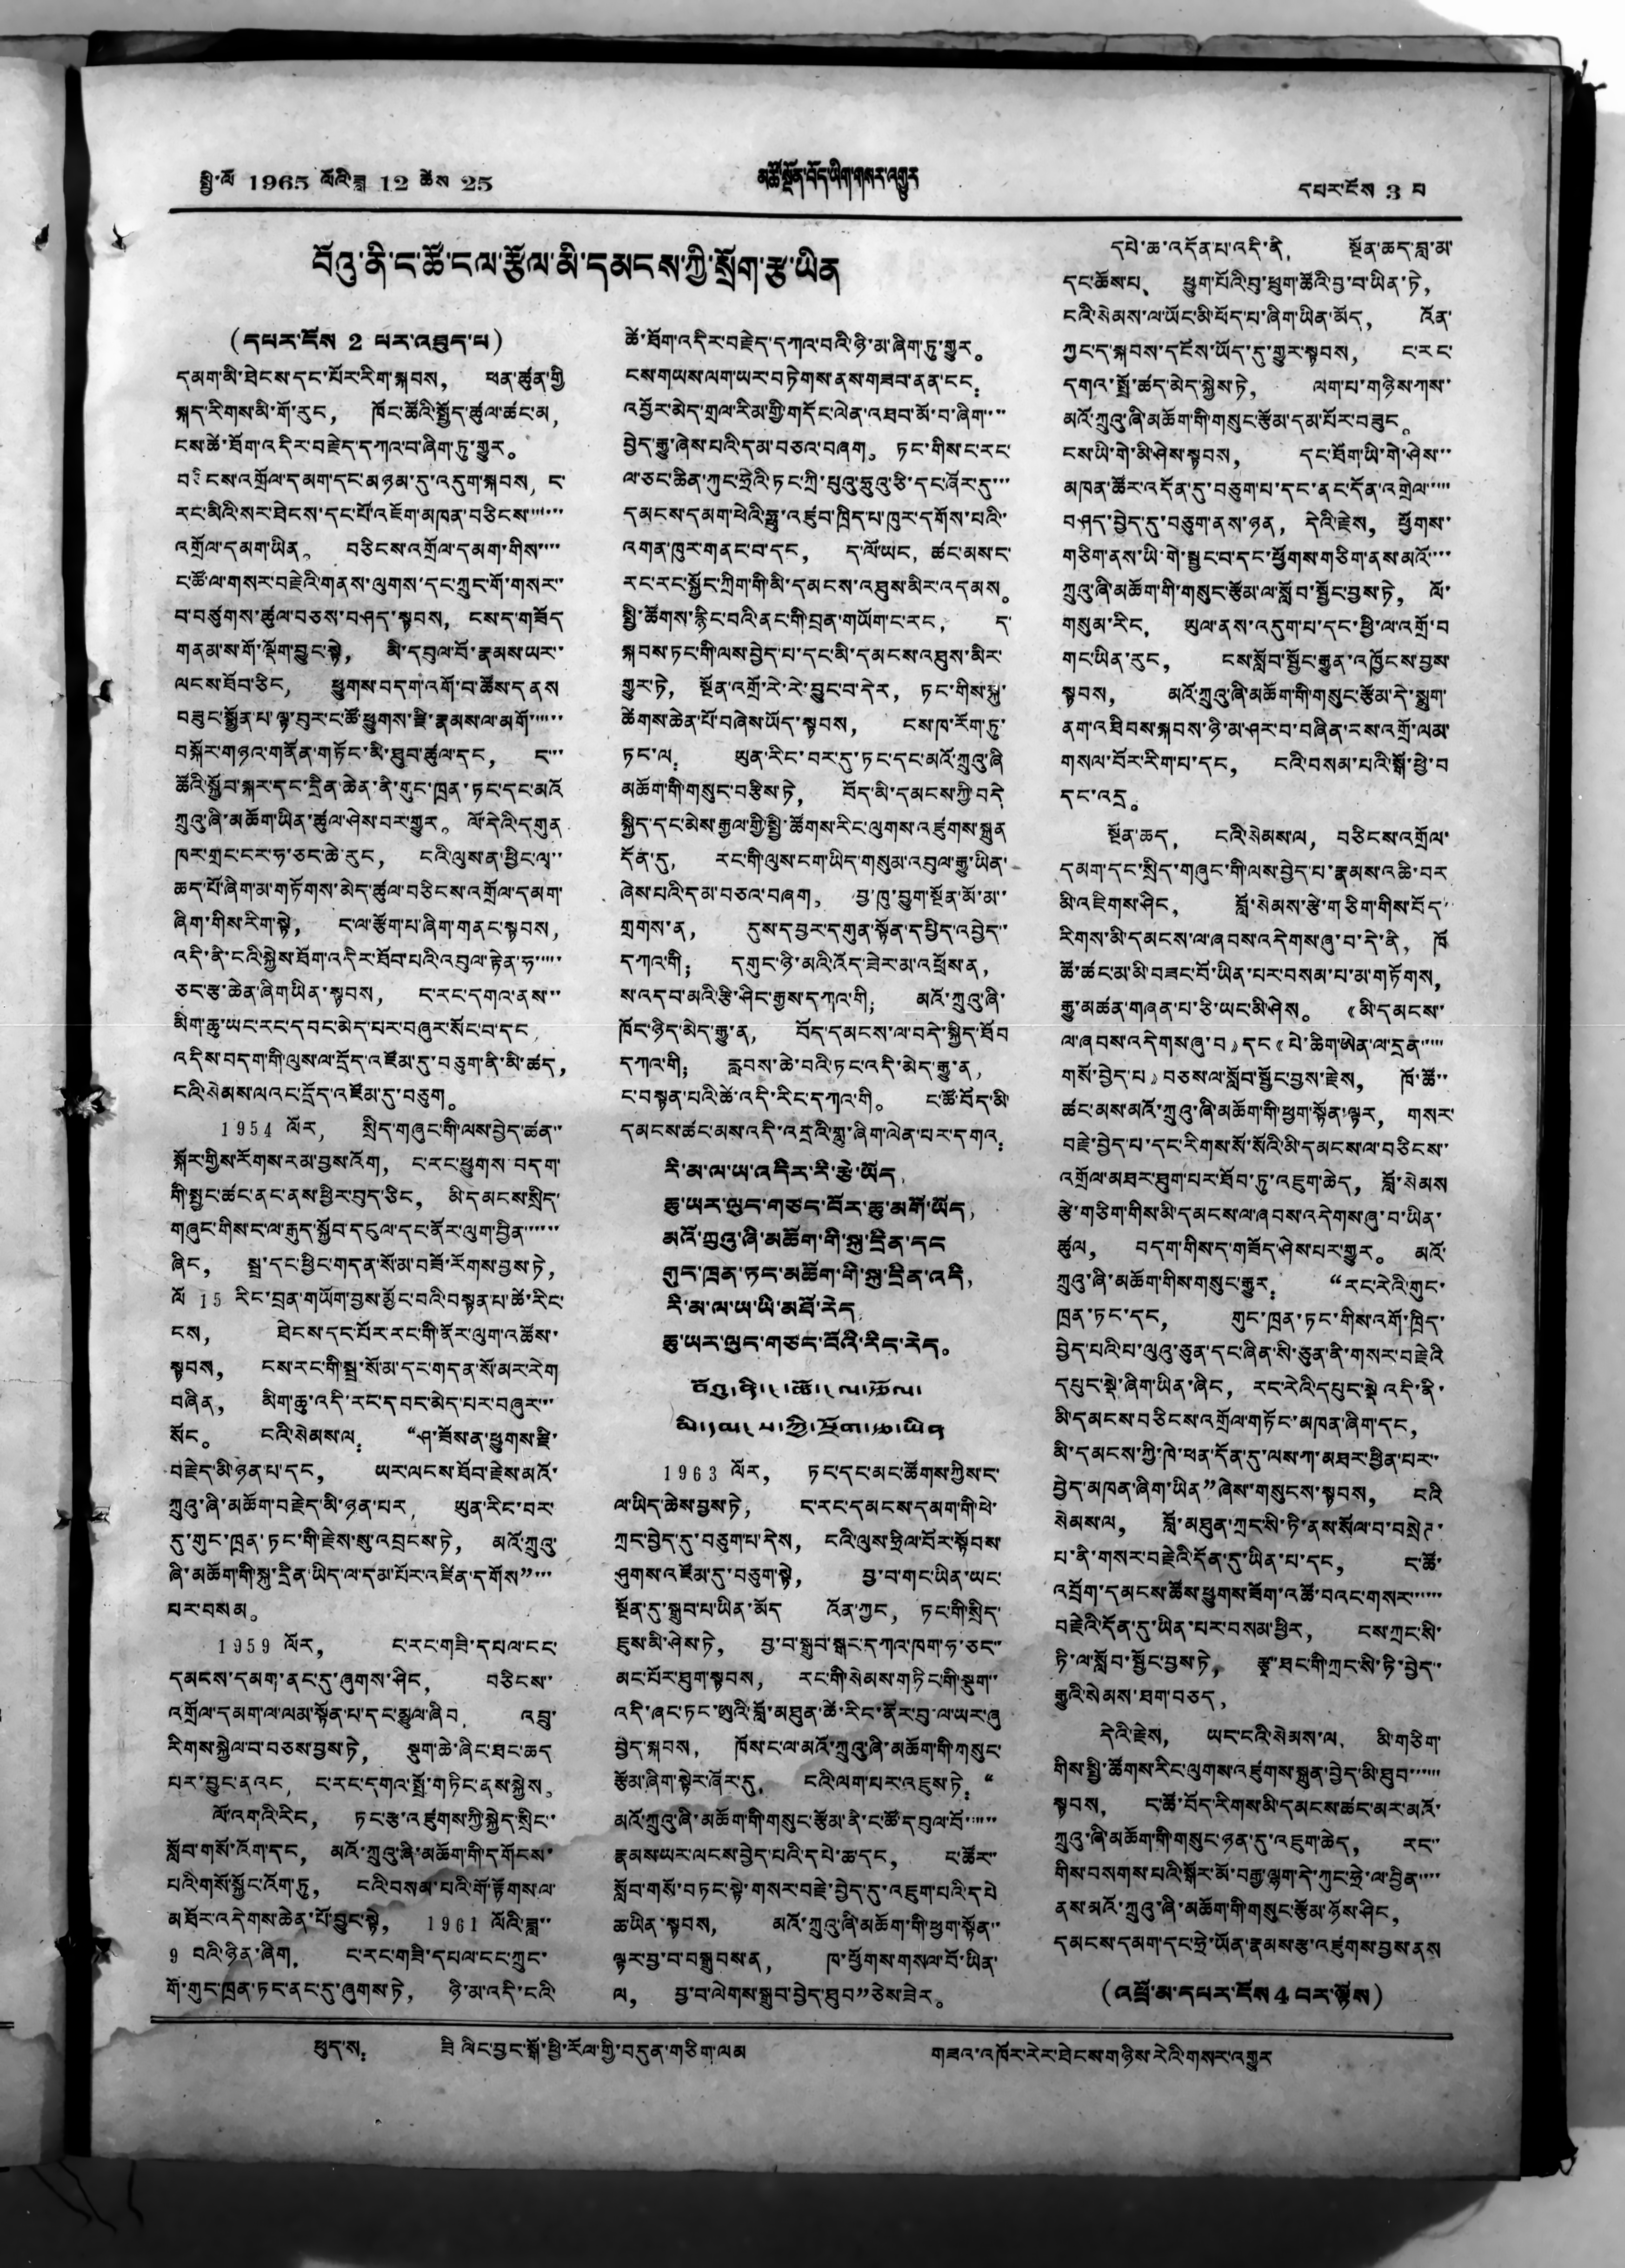སྤྱི་ལོ 1965 ལོའི་ཟླ 12 ཚེས 25 མཚོ་སྔོན་བོད་ཡིག་གསར་འགྱུར དཔར་ངོས 3 བ
བོའུ་ནི་ང་ཚོ་ངལ་རྩོལ་མི་དམངས་ཀྱི་སྲོག་རྩ་ཡིན
(དཔར་ངོས 2 པར་འཐུད་པ)
དམག་མི་ཐེངས་དང་པོར་རིག་སྐབས， ཕན་ཚུན་གྱི་
སྐད་རིགས་མི་གོ་རུང， ཁོང་ཚོའི་སྤྱོད་ཚུལ་ཚང་མ，
ངས་ཚེ་ཐོག་འདིར་བརྗེད་དཀའ་བ་ཞིག་ཏུ་གྱུར。
བཅིངས་འགྲོལ་དམག་དང་མཉམ་དུ་འདུག་སྐབས， ང་
རང་མིའི་སར་ཐེངས་དང་པོ་འཇོག་མཁན་བཅིངས་་་་་་་
འགྲོལ་དམག་ཡིན。 བཅིངས་འགྲོལ་དམག་གིས་་་་
ང་ཚོ་ལ་གསར་བརྗེའི་གནས་ལུགས་དང་ཀྲུང་གོ་གསར་་
བ་བཙུགས་ཚུལ་བཅས་བཤད་སྟབས， ངས་ད་གཟོད་
གནམ་ས་གོ་ལྡོག་བྱུང་སྟེ， མི་དབུལ་བོ་རྣམས་ཡར་་
ལངས་ཐོབ་ཅིང， ཕྱུགས་བདག་འགོ་བ་ཚོས་དནུས
བཟུང་སྨྱོན་པ་ལྟ་བུར་ང་ཚོ་ཕྱུགས་རྫི་རྣམས་ལ་མགོ་་་་་་
བསྐོར་གཉའ་གནོན་གཏོང་མི་ཐུབ་ཚུལ་དང， ང་་་
ཚོའི་སྐྱོབ་སྐར་དང་དྲིན་ཆེན་ནི་གུང་ཁྲན་ཏང་དང་མའོ་
ཀྲུའུ་ཞི་མཆོག་ཡིན་ཚུལ་ཤེས་བར་གྱུར。 ལོ་དེའི་དགུན
ཁར་གྲང་ངར་ཧ་ཅང་ཆེ་རུང， ངའི་ལུས་ན་ཕྱིང་ལྭ་་
ཆད་པོ་ཞིག་མ་གཏོགས་མེད་ཚུལ་བཅིངས་འགྲོལ་དམག་
ཞིག་གིས་རིག་སྟེ， ང་ལ་རྩོག་པ་ཞིག་གནང་སྟབས，
འདི་ནི་ངའི་སྐྱེས་ཐོག་འདིར་ཐོབ་པའི་འབུལ་རྟེན་ཧ་་་་་
ཅད་རྩ་ཆེན་ཞིག ཡིན་སྟབས， ང་རང་དགའ་ནས་་་
མིག་ཆུ་ཡང་རང་དབང་མེད་པར་བཞུར་སོང་བ་དང，
འདིས་བདག་གི་ལུས་ལ་དྲོད་འཛོམ་དུ་བཅུག་ནི་མི་ཚད，
ངའི་སེམས་ལའང་དྲོད་འཛོམ་དུ་བཅུག。
1954 ལོར， སྲིད་གཞུང་གི་ལས་བྱེད་ཚན་་
སྐོར་གྱིས་རོགས་རམ་བྱས་འོག， ང་རང་ཕྱུགས་བདག་
གི་སྤྱང་ཚང་ནང་ནས་ཕྱིར་བུད་ཅིང， མི་དམངས་སྲིད་
གཞུང་གིས་ང་ལ་རྒུད་སྐྱོབ་དངུལ་དང་ནོར་ལུག་བྱིན་་་་་་
ཞིང， སྦྲ་དང་ཕྱིང་གདན་སོ་མ་བཟོ་རོགས་བྱས་ཏེ，
ལོ 15 རིང་བྲན་གཡོག་བྱས་མྱོང་བའི་བསྟན་པ་ཚེ་རིང་
ངས， ཐེངས་དང་པོར་རང་གི་ནོར་ལུག་འཚོས་་
སྟབས， ངས་རང་གི་སྦྲ་སོ་མ་དང་གདན་སོ་མར་རེག
བཞིན， མིག་ཆུ་འདི་རང་དབང་མེད་པར་བཞུར་་་་
སོང。 ངའི་སེམས་ལ： “ཤ་ཟོས་ན་ཕྱུགས་རྫི་
བརྗེད་མི་ཉན་པ་དང， ཡར་ལངས་ཐོབ་རྗེས་མའོ་
ཀྲུའུ་ཞི་མཆོག་བརྗེད་མི་ཉན་པར， ཡུན་རིང་བར་
དུ་གུང་ཁྲན་ཏང་གི་རྗེས་སུ་འབྲངས་ཏེ， མའོ་ཀྲུའུ་
ཞི་མཆོག་གི་སྐུ་དྲིན་ཡིད་ལ་དམ་པོར་འཛིན་དགོས”་་་
པར་བསམ。
1959 ལོར， ང་རང་གཟི་དཔལ་ངང་
དམངས་དམག་ནང་དུ་ཞུགས་ཤིང， བཅིངས་་
འགྲོལ་དམག་ལ་ལམ་སྟོན་པ་དང་མྱུལ་ཞིབ， འབྲུ་
རིགས་སྐྱེལ་བ་བཅས་བྱས་ཏེ， སྡུག་ཆེ་ཞིང་ཐང་ཆད
པར་བྱུང་ནའང， ང་རང་དགའ་སྤྲོ་གཏིང་ནས་སྐྱེས。
ལོ་འགའི་རིང， ཏང་རྩ་འཛུགས་ཀྱི་སྐྱེད་སྲིང་
སློབ་གསོ་འོག་དང， མའོ་ཀྲུའུ་ཞི་མཆོག་གི་དགོངས་
པའི་གསོ་སྐྱོང་འོག་ཏུ， ངའི་བསམ་པའི་གོ་རྟོགས་ལ་
མཐོར་འདེགས་ཆེན་པོ་བྱུང་སྟེ， 1961 ལོའི་ཟླ་་
9 བའི་ཉིན་ཞིག， ང་རང་གཟི་དཔལ་ངང་ཀྲུང་
གོ་གུང་ཁྲན་ཏང་ནང་དུ་ཞུགས་ཏེ， ཉི་མ་འདི་ངའི་
ཚེ་ཐོག་འདིར་བརྗེད་དཀའ་བའི་ཉི་མ་ཞིག་ཏུ་གྱུར。
ངས་གཡས་ལག་ཡར་བཏེགས་ནས་གཟབ་ནན་ངང：
འབྱོར་མེད་གྲལ་རིམ་གྱི་གདོང་ལེན་འཐབ་མོ་བ་ཞིག་་་་
བྱེད་རྒྱུ་ཞེས་པའི་དམ་བཅའ་བཞག。 ཏང་གིས་ང་རང་
ལ་ཅང་ཆིན་ཀུང་ཧྲེའི་ཏང་ཀྲི་པུའུ་ཧྲུའུ་ཅི་དང་ཞོར་དུ་་་་
དམངས་དམག་ཕེའི་ཧྥུ་འཛུབ་ཁྲིད་པ་ཁུར་དགོས་པའི་་
འགན་ཁུར་གནང་བ་དང， ད་ལོ་ཡང， ཚང་མས་ང་
རང་རང་སྐྱོད་ཀྲིག་གི་མི་དམངས་འཐུས་མིར་འདམས。
སྤྱི་ཚོགས་རྙིང་བའི་ནང་གི་བྲན་གཡོག་ང་རང， ད་
སྐབས་ཏང་གི་ལས་བྱེད་པ་དང་མི་དམངས་འཐུས་མིར་
གྱུར་ཏེ， སྔོན་འགྲོ་རེ་རེ་བྱུང་བ་དེར， ཏང་གིས་སྐུ་
ཚེགས་ཆེན་པོ་བཞེས་ཡོད་སྟབས， ངས་ཁ་རོག་ཏུ་
ཏང་ལ： ཡུན་རིང་བར་དུ་ཏང་དང་མའོ་ཀྲུའུ་ཞི
མཆོག་གི་གསུང་བརྩིས་ཏེ， བོད་མི་དམངས་ཀྱི བདེ་
སྐྱིད་དང་མེས་རྒྱལ་གྱི་སྤྱི་ཚོགས་རིང་ལུགས་འཛུགས་སྐྲུན
དོན་དུ， རང་གི་ལུས་ངག་ཡིད་གསུམ་འབུལ་རྒྱུ་ཡིན་
ཞེས་པའི་དམ་བཅའ་བཞག， བྱ་ཁུ་བྱུག་སྔོན་མོ་མ་་
གྲགས་ན， དུས་དབྱར་དགུན་སྟོན་དཔྱིད་འབྱེད་་
དཀའ་གི； དགུང་ཉི་མའི་འོད་ཟེར་མ་འཕྲོས་ན，
ས་འདུབ་མའི་རྩི་ཤིང་རྒྱས་དཀའ་གི； མའོ་ཀྲུའུ་ཞི་
ཁོང་ཉིད་མེད་རྒྱུ་ན， བོད་དམངས་ལ་བདེ་སྐྱིད་ཐོབ
དཀའ་གི； རླབས་ཆེ་བའི་ཏང་འདི་མེད་རྒྱུ་ན，
ང་བསྟན་པའི་ཚེ་འདི་རིང་དཀའ་གི。 ང་ཚོ་བོད་མི
དམངས་ཚང་མས་འདི་འདྲའི་གླུ་ཞིག་ལེན་པར་དགའ：
རི་མ་ལ་ཡ་འདིར་རི་རྩེ་ཡོད，
ཆུ་ཡར་ལུད་གཙང་པོར་ཆུ་མགོ་ཡོད，
མའོ་ཀྲུའུ་ཞི་མཆོག་གི་མུ་དྲིན་དང
གུང་ཁྲན་ཏང་མཆོག་གི་སྐུ་དྲིན་འདི，
རི་མ་ལ་ཡ་ཡི་མཐོ་རེད，
ཆུ་ཡར་ལུང་གཙང་པོའི་རིང་རེད。
བོའོ་ནི་ང་ཚོ་ངལ་རྩོལ་
མི་དམངས་ཀྱི་སྲོག་རྩ་ཡིན
1963 ལོར， ཏང་དང་མང་ཚོགས་ཀྱིས་ང་
ལ་ཡིད་ཆེས་བྱས་ཏེ， ང་རང་དམངས་དམག་གི་ཕེ་
ཀྲང་བྱེད་དུ་བཅུག་པ་དེས， ངའི་ལུས་ཧྲིལ་བོར་སྟོབས་
ཤུགས་འཛོམ་དུ་བཅུག་སྟེ， བྱ་བ་གང་ཡིན་ཡང་
སྔོན་རུ་སྒྲུབ་པ་ཡིན་མོད འོན་ཀྱང， ཏང་གི་སྲིད་
ཇུས་མི་ཤེས་ཏེ， བྱ་བ་སྒྲུབ་སྒང་དཀའ་ཁག་ཧ་ཅང་་
མང་པོར་ཐུག་སྟབས， རང་གི་སེམས་གཏིང་གི་སྡུག་་
འདི་ཞུང་ཏང་ཨུའི་བློ་མཐུན་ཚེ་རིང་ནོར་བུ་ལ་ཡར་ཞུ
བྱེད་སྐབས， ཁོས་ང་ལ་མའོ་ཀྲུའུ་ཞི་མཆོག་གི་གསུང་
རྩོམ་ཞིག་སྟེར་ཞོར་དུ， ངའི་ལག་པར་འཇུས་ཏེ：“
མའོ་ཀྲུའུ་ཞི་མཆོག་གི་གསུང་རྩོམ་ནི་ང་ཚོ་དབུལ་བོ་་་་་་
རྣམས་ཡར་ལངས་བྱེད་པའི་དཔེ་ཆ་དང， ང་ཚོར་་
སློབ་གསོ་བཏང་སྟེ་གསར་བརྗེ་བྱེད་དུ་འཇུག་པའི་དཔེ
ཆ་ཡིན་སྟབས， མའོ་ཀྲུའུ་ཞི་མཆོག་གི་ཕྱག་སྟོན་་
ལྟར་བྱ་བ་བསྒྲུབས་ན， ཁ་ཕྱོགས་གསལ་བོ་ཡིན་
ལ， བྱ་བ་ལེགས་སྒྲུབ་བྱེད་ཐུབ”ཅེས་ཟེར。
དཔེ་ཆ་འདོན་པ་འདི་ནི， སྔོན་ཆད་བླ་མ་
དང་ཆོས་པ、 ཕྱུག་པོའི་བུ་ཕྲུག་ཚོའི་བྱ་བ་ཡིན་ཏེ，
ངའི་སེམས་ལ་ཡོང་མི་ཕོད་པ་ཞིག་ཡིན་མོད， འོན་
ཀྱང་ད་སྐབས་དངོས་ཡོད་དུ་གྱུར་སྟབས， ང་རང་
དགའ་སྤྲོ་ཚད་མེད་སྐྱེས་ཏེ， ལག་པ་གཉིས་ཀས་་
མའོ་ཀྲུའུ་ཞི་མཆོག་གི་གསུང་རྩོམ་དམ་པོར་བཟུང。
ངས་ཡི་གེ་མི་ཤེས་སྟབས， དང་ཐོག་ཡི་གེ་ཤེས་་་
མཁན་ཚོར་འདོན་དུ་བཅུག་པ་དང་ནང་དོན་འགྲེལ་་་་་
བཤད་བྱེད་དུ་བཅུག་ནས་ཉན， དེའི་རྗེས， ཕྱོགས་
གཅིག་ནས་ཡི་གེ་སྦྱང་བ་དང་ཕྱོགས་གཅིག་ནས་མའོ་་་་
ཀྲུའུ་ཞི་མཆོག་གི་གསུང་རྩོམ་ལ་སློབ་སྦྱོང་བྱས་ཏེ， ལོ་
གསུམ་རིང， ཡུལ་ནས་འདུག་པ་དང་ཕྱི་ལ་འགྲོ་བ
གང་ཡིན་རུང， ངས་སློབ་སྦྱོང་རྒྱུན་འཁྱོངས་བྱས་
སྟབས， མའོ་ཀྲུའུ་ཞི་མཆོག་གི་གསུང་རྩོམ་དེ་སྨུག་
ནག་འཐིབས་སྐབས་ཉི་མ་ཤར་བ་བཞིན་རས་འགྲོ་ལམ་
གསལ་བོར་རིག་པ་དང， ངའི་བསམ་པའི་སྒོ་ཕྱེ་བ་
དང་འདྲ。
སྔོན་ཆད， ངའི་སེམས་ལ， བཅིངས་འགྲོལ་
དམག་དང་སྲིད་གཞུང་གི་ལས་བྱེད་པ་རྣམས་འཆི་བར
མི་འཇིགས་ཤིང， བློ་སེམས་རྩེ་གཅིག་གིས་བོད་
རིགས་མི་དམངས་ལ་ཞབས་འདེགས་ཞུ་བ་དེ་ནི， ཁོ་
ཚོ་ཚང་མ་མི་བཟང་པོ་ཡིན་པར་བསམ་པ་མ་གཏོགས，
རྒྱུ་མཚན་གཞན་པ་ཅི་ཡང་མི་ཤེས。 《མི་དམངས་་
ལ་ཞབས་འདེགས་ཞུ་བ》དང《པེ་ཆིག་ཨེན་ལ་དྲན་་་་་
གསོ་བྱེད་པ》བཅས་ལ་སློབ་སྦྱོང་བྱས་རྗེས， ཁོ་ཚོ་་
ཚང་མས་མའོ་ཀྲུའུ་ཞི་མཆོག་གི་ཕྱག་སྟོན་ལྟར， གསར་
བརྗེ་བྱེད་པ་དང་རིགས་སོ་སོའི་མི་དམངས་ལ་བཅིངས་་
འགྲོལ་མཐར་ཐུག་པར་ཐོབ་ཏུ་འཇུག་ཆེད， བློ་སེམས་
རྩེ་གཅིག་གིས་མི་དམངས་ལ་ཞབས་འདེགས་ཞུ་བ་ཡིན་
ཚུལ， བདག་གིས་ད་གཟོད་ཤེས་པར་གྱུར。 མའོ་
ཀྲུའུ་ཞི་མཆོག་གིས་གསུང་རྒྱུར： “རང་རེའི་གུང་
ཁྲན་ཏང་དང， གུང་ཁྲན་ཏང་གིས་འགོ་ཁྲིད་
བྱེད་པའི་པ་ལུའུ་ཅུན་དང་ཞིན་སི་ཅུན་ནི་གསར་བརྗེའི
དཔུང་སྡེ་ཞིག་ཡིན་ཞིང， རང་རེའི་དཔུང་སྡེ འདི་ནི་
མི་དམངས་བཅིངས་འགྲོལ་གཏོང་མཁན་ཞིག་དང，
མི་དམངས་ཀྱི་ཁེ་ཕན་དོན་དུ་ལས་ཀ་མཐར་ཕྱིན་པར་་
བྱེད་མཁན་ཞིག་ཡིན”ཞེས་གསུངས་སྟབས， ངའི
སེམས་ལ， བློ་མཐུན་ཀྲང་སི་ཏི་ནས་སོལ་བ་བསྲེཊ་
པ་ནི་གསར་བརྗེའི་དོན་དུ་ཡིན་པ་དང， ང་ཚོ་
འབྲོག་དམངས་ཚོས་ཕྱུགས་ཟོག་འཚོ་བའང་གསར་་་་་་
བརྗེའི་དོན་དུ་ཡིན་པར་བསམ་ཕྱིར， ངས་ཀྲུང་སི་
ཏི་ལ་སློབ་སྦྱོང་བྱས་ཏེ， རྩྭ་ཐང་གི་ཀྲང་སི་ཏི་བྱེད་་
རྒྱུའི་སེམས་ཐག་བཅད。
དེའི་རྗེས， ཡང་ངའི་སེམས་ལ， མི་གཅིག
གིས་སྤྱི་ཚོགས་རིང་ལུགས་འཛུགས་སྐྲུན་བྱེད་མི་ཐུབ་་་་་་
སྟབས， ང་ཚོ་བོད་རིགས་མི་དམངས་ཚང་མར་མའོ་
ཀྲུའུ་ཞི་མཆོག་གི་གསུང་ཉན་དུ་འཇུག་ཆེད， རང་
གིས་བསགས་པའི་སྒོར་མོ་བརྒྱ་ལྷག་དེ་ཀུང་ཧྲེ་ལ་བྱིན་་་་་
ནས་མའོ་ཀྲུའུ་ཞི་མཆོག་གི་གསུང་རྩོམ་ཉོས་ཤིང，
དམངས་དམག་དང་ཧྲེ་ཡོན་རྣམས་རྩ་འཛུགས་བྱས་ནས
(འཕྲོ་མ་དཔར་ངོས 4 བར་ལྟོས)
ཕུད་ས： ཟི ལིང་བྱང་སྒོ་ཕྱི་རོལ་གྱི་བདུན་གཅིག་ལམ གཟའ་འཁོར་རེར་ཐེངས་གཉིས་རེའི་གསར་འགྱུར
